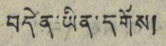བདེན་ཡིན་དགོས།
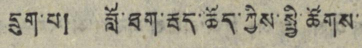དྲུག་པ། བློ་ཐག་རྦད་ཆོད་ཀྱིས་སྤྱི་ཚོགས་
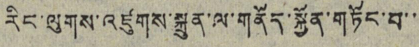རིང་ལུགས་འཛུགས་སྐྲུན་ལ་གནོད་སྐྱོན་གཏོང་བ་་
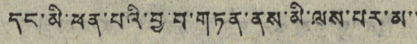དང་མི་ཕན་པའི་བྱ་བ་གཏན་ནས་མི་ལས་པར་མ་་
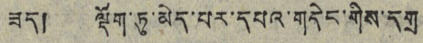ཟད། ལྡོག་ཏུ་མེད་པར་དཔའ་གདེང་གིས་དགྲ
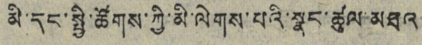མི་དང་སྤྱི་ཚོགས་ཀྱི་མི་ལེགས་པའི་སྣང་ཚུལ་མཐའ་
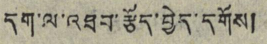དག་ལ་འཐབ་རྩོད་བྱེད་དགོས།
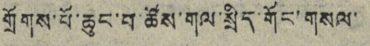གྲོགས་པོ་ཆུང་བ་ཚོས་གལ་སྲིད་གོང་གསལ་
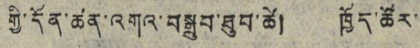གྱི་དོན་ཚན་འགའ་བསྒྲུབ་ཐུབ་ཚེ། ཁྱོད་ཚོར་
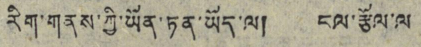རིག་གནས་ཀྱི་ཡོན་ཏན་ཡོད་ལ། ངལ་རྩོལ་ལ་
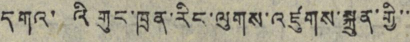དགའ་འི གུང་ཁྲན་རིང་ལུགས་འཛུགས་སྐྲུན་གྱི་་
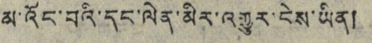མ་འོང་བའི་དང་ལེན་མིར་འགྱུར་ངེས་ཡིན།
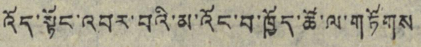འོད་སྟོང་འབར་བའི་མ་འོང་བ་ཁྱོད་ཚོ་ལ་གཏོགས
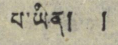པ་ཡིན། །
